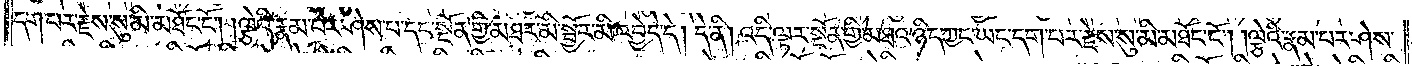དག་པར་རྗེས་སུ་མི་མཐོང་ངོ༌། །ལྕེའི་རྣམ་པར་ཤེས་པ་དང་སྔོན་གྱི་མཐར་མི་སྦྱོར་མི་འབྱེད་དེ། དེ་ནི། འདི་ལྟར་སྔོན་གྱི་མཐའ་ཉིད་ཀྱང་ཡང་དག་པར་རྗེས་སུ་མི་མཐོང་ངོ༌། །ལྕེའི་རྣམ་པར་ཤེས་
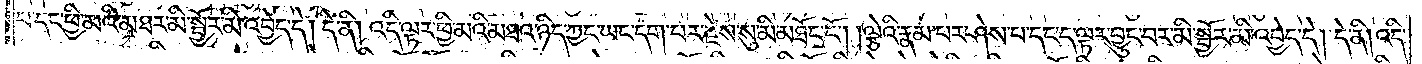པ་དང་ཕྱི་མའི་མཐར་མི་སྦྱོར་མི་འབྱེད་དེ། དེ་ནི། འདི་ལྟར་ཕྱི་མའི་མཐའ་ཉིད་ཀྱང་ཡང་དག་པར་རྗེས་སུ་མི་མཐོང་ངོ༌། །ལྕེའི་རྣམ་པར་ཤེས་པ་དང་ད་ལྟར་བྱུང་བར་མི་སྦྱོར་མི་འབྱེད་དེ། དེ་ནི། འདི་
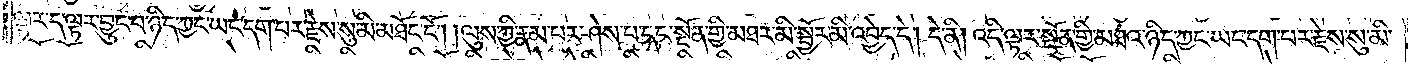ལྟར་ད་ལྟར་བྱུང་བ་ཉིད་ཀྱང་ཡང་དག་པར་རྗེས་སུ་མི་མཐོང་ངོ༌། །ལུས་ཀྱི་རྣམ་པར་ཤེས་པ་དང་སྔོན་གྱི་མཐར་མི་སྦྱོར་མི་འབྱེད་དེ། དེ་ནི། འདི་ལྟར་སྔོན་གྱི་མཐའ་ཉིད་ཀྱང་ཡང་དག་པར་རྗེས་སུ་མི་
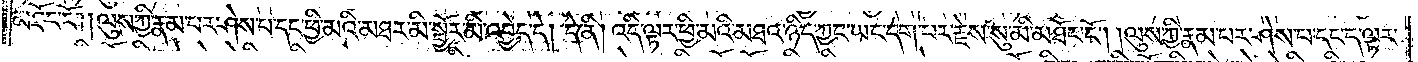མཐོང་ངོ༌། །ལུས་ཀྱི་རྣམ་པར་ཤེས་པ་དང་ཕྱི་མའི་མཐར་མི་སྦྱོར་མི་འབྱེད་དེ། དེ་ནི། འདི་ལྟར་ཕྱི་མའི་མཐའ་ཉིད་ཀྱང་ཡང་དག་པར་རྗེས་སུ་མི་མཐོང་ངོ༌། །ལུས་ཀྱི་རྣམ་པར་ཤེས་པ་དང་ད་ལྟར་
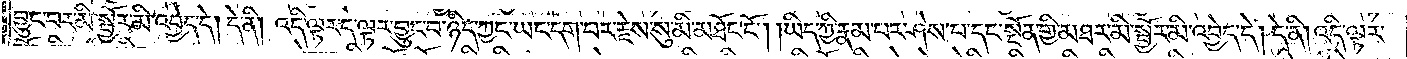བྱུང་བར་མི་སྦྱོར་མི་འབྱེད་དེ། དེ་ནི། འདི་ལྟར་ད་ལྟར་བྱུང་བ་ཉིད་ཀྱང་ཡང་དག་པར་རྗེས་སུ་མི་མཐོང་ངོ༌། །ཡིད་ཀྱི་རྣམ་པར་ཤེས་པ་དང་སྔོན་གྱི་མཐར་མི་སྦྱོར་མི་འབྱེད་དེ། དེ་ནི། འདི་ལྟར་
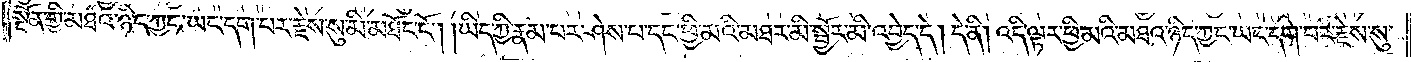སྔོན་གྱི་མཐའ་ཉིད་ཀྱང་ཡང་དག་པར་རྗེས་སུ་མི་མཐོང་ངོ༌། །ཡིད་ཀྱི་རྣམ་པར་ཤེས་པ་དང་ཕྱི་མའི་མཐར་མི་སྦྱོར་མི་འབྱེད་དེ། དེ་ནི། འདི་ལྟར་ཕྱི་མའི་མཐའ་ཉིད་ཀྱང་ཡང་དག་པར་རྗེས་སུ་
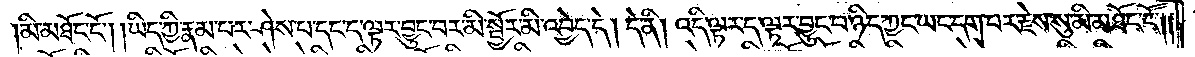མི་མཐོང་ངོ༌། །ཡིད་ཀྱི་རྣམ་པར་ཤེས་པ་དང་ད་ལྟར་བྱུང་བར་མི་སྦྱོར་མི་འབྱེད་དེ། དེ་ནི། འདི་ལྟར་ད་ལྟར་བྱུང་བ་ཉིད་ཀྱང་ཡང་དག་པར་རྗེས་སུ་མི་མཐོང་ངོ༌༎
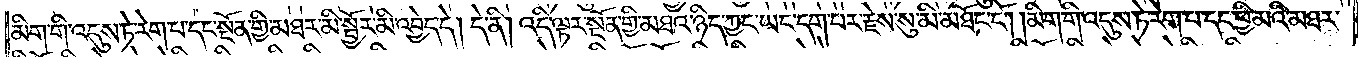མིག་གི་འདུས་ཏེ་རེག་པ་དང་སྔོན་གྱི་མཐར་མི་སྦྱོར་མི་འབྱེད་དེ། དེ་ནི། འདི་ལྟར་སྔོན་གྱི་མཐའ་ཉིད་ཀྱང་ཡང་དག་པར་རྗེས་སུ་མི་མཐོང་ངོ༌། །མིག་གི་འདུས་ཏེ་རེག་པ་དང་ཕྱི་མའི་མཐར་
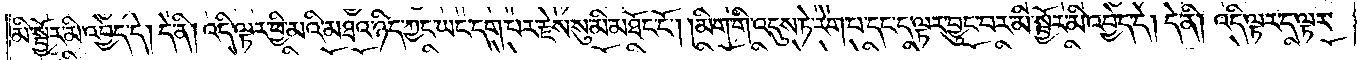མི་སྦྱོར་མི་འབྱེད་དེ། དེ་ནི། འདི་ལྟར་ཕྱི་མའི་མཐའ་ཉིད་ཀྱང་ཡང་དག་པར་རྗེས་སུ་མི་མཐོང་ངོ༌། །མིག་གི་འདུས་ཏེ་རེག་པ་དང་ད་ལྟར་བྱུང་བར་མི་སྦྱོར་མི་འབྱེད་དེ། དེ་ནི། འདི་ལྟར་ད་ལྟར་
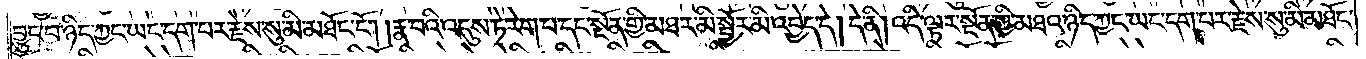བྱུང་བ་ཉིད་ཀྱང་ཡང་དག་པར་རྗེས་སུ་མི་མཐོང་ངོ༌། །རྣ་བའི་འདུས་ཏེ་རེག་པ་དང་སྔོན་གྱི་མཐར་མི་སྦྱོར་མི་འབྱེད་དེ། དེ་ནི། འདི་ལྟར་སྔོན་གྱི་མཐའ་ཉིད་ཀྱང་ཡང་དག་པར་རྗེས་སུ་མི་མཐོང་
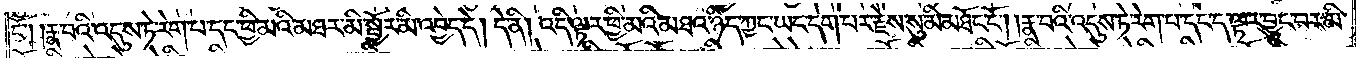ངོ༌། །རྣ་བའི་འདུས་ཏེ་རེག་པ་དང་ཕྱི་མའི་མཐར་མི་སྦྱོར་མི་འབྱེད་དེ། དེ་ནི། འདི་ལྟར་ཕྱི་མའི་མཐའ་ཉིད་ཀྱང་ཡང་དག་པར་རྗེས་སུ་མི་མཐོང་ངོ༌། །རྣ་བའི་འདུས་ཏེ་རེག་པ་དང་ད་ལྟར་བྱུང་བར་མི་
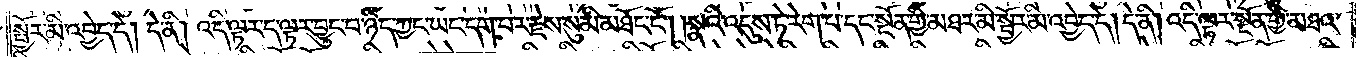སྦྱོར་མི་འབྱེད་དེ། དེ་ནི། འདི་ལྟར་ད་ལྟར་བྱུང་བ་ཉིད་ཀྱང་ཡང་དག་པར་རྗེས་སུ་མི་མཐོང་ངོ༌། །སྣའི་འདུས་ཏེ་རེག་པ་དང་སྔོན་གྱི་མཐར་མི་སྦྱོར་མི་འབྱེད་དེ། དེ་ནི། འདི་ལྟར་སྔོན་གྱི་མཐའ་
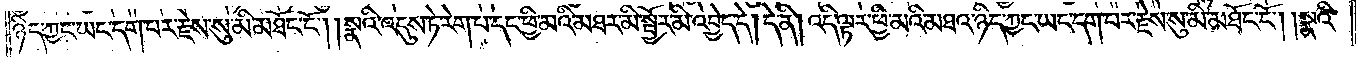ཉིད་ཀྱང་ཡང་དག་པར་རྗེས་སུ་མི་མཐོང་ངོ༌། །སྣའི་འདུས་ཏེ་རེག་པ་དང་ཕྱི་མའི་མཐར་མི་སྦྱོར་མི་འབྱེད་དེ། དེ་ནི། འདི་ལྟར་ཕྱི་མའི་མཐའ་ཉིད་ཀྱང་ཡང་དག་པར་རྗེས་སུ་མི་མཐོང་ངོ༌། །སྣའི་
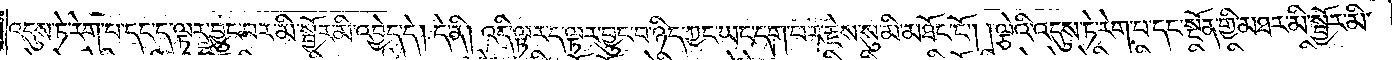འདུས་ཏེ་རེག་པ་དང་ད་ལྟར་བྱུང་བར་མི་སྦྱོར་མི་འབྱེད་དེ། དེ་ནི། འདི་ལྟར་ད་ལྟར་བྱུང་བ་ཉིད་ཀྱང་ཡང་དག་པར་རྗེས་སུ་མི་མཐོང་ངོ༌། །ལྕེའི་འདུས་ཏེ་རེག་པ་དང་སྔོན་གྱི་མཐར་མི་སྦྱོར་མི་
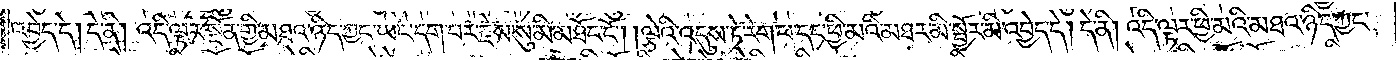འབྱེད་དེ། དེ་ནི། འདི་ལྟར་སྔོན་གྱི་མཐའ་ཉིད་ཀྱང་ཡང་དག་པར་རྗེས་སུ་མི་མཐོང་ངོ༌། །ལྕེའི་འདུས་ཏེ་རེག་པ་དང་ཕྱི་མའི་མཐར་མི་སྦྱོར་མི་འབྱེད་དེ། དེ་ནི། འདི་ལྟར་ཕྱི་མའི་མཐའ་ཉིད་ཀྱང་
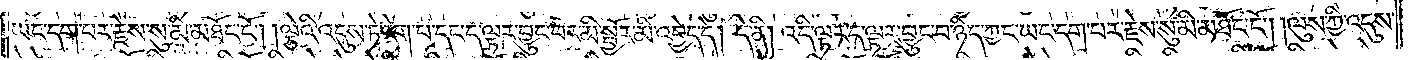ཡང་དག་པར་རྗེས་སུ་མི་མཐོང་ངོ༌། །ལྕེའི་འདུས་ཏེ་རེག་པ་དང་ད་ལྟར་བྱུང་བར་མི་སྦྱོར་མི་འབྱེད་དེ། དེ་ནི། འདི་ལྟར་ད་ལྟར་བྱུང་བ་ཉིད་ཀྱང་ཡང་དག་པར་རྗེས་སུ་མི་མཐོང་ངོ༌། །ལུས་ཀྱི་འདུས་
